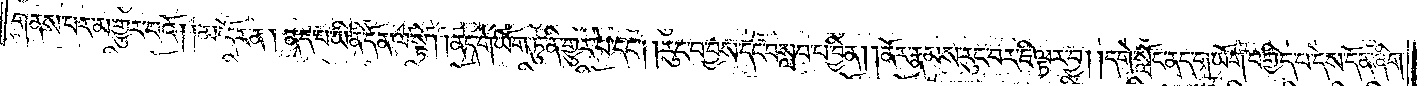གནས་པར་མ་གྱུར་བའོ། །མདོར་ན། ནད་པ་ཡི་ནི་དོན་ལ་སྟེ། །ནད་གཡོག་ཏུ་ནི་གྱུར་པ་དང༌། །རུང་བ་བྱས་དང་བསླབ་པ་བྱིན། །ནོར་རྣམས་རུང་བར་ཇི་ལྟར་བྱ། །དགེ་སློང་ནད་གཡོག་བགྱིད་པ་དེས་དོན་ཞིག་
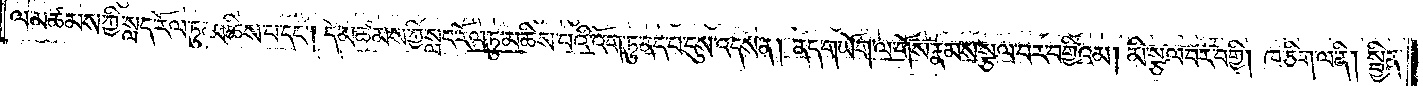ལ་མཚམས་ཀྱི་སླད་རོལ་ཏུ་མཆིས་པ་དང༌། དེ་མཚམས་ཀྱི་སླད་རོལ་ཏུ་མཆིས་པའི་འོག་ཏུ་ནད་པ་དུས་འདས་ན། ནད་གཡོག་ལ་གོས་རྣམས་སྩལ་བར་བགྱིའམ། མི་སྩལ་བར་བགྱི། ཁ་ཅིག་ལ་ནི། སྦྱིན་
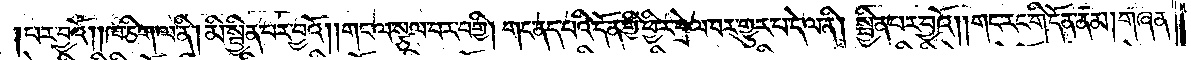པར་བྱའོ། །ཁ་ཅིག་ལ་ནི། མི་སྦྱིན་པར་བྱའོ། །གང་ལ་སྩལ་པར་བགྱི། གང་ནད་པའི་དོན་གྱི་ཕྱིར་བྲེལ་བར་གྱུར་བ་དེ་ལ་ནི། སྦྱིན་པར་བྱའོ། །གང་རང་གི་དོན་ནམ། གཞན་
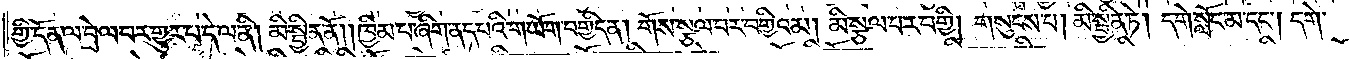གྱི་དོན་ལ་བྲེལ་བར་གྱུར་པ་དེ་ལ་ནི། མི་སྦྱིན་ནོ། །ཁྱིམ་པ་ཞིག་ནད་པའི་གཡོག་བགྱིད་ན། གོས་སྩལ་པར་བགྱིའམ། མི་སྩལ་བར་བགྱི། གསུངས་པ། མི་སྦྱིན་ཏེ། དགེ་སློང་མ་དང༌། དགེ་
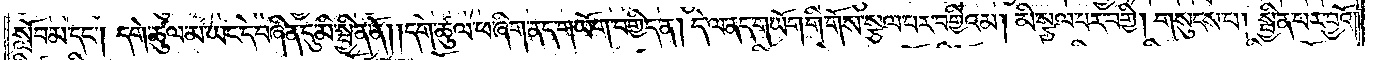སློབ་མ་དང༌། དགེ་ཚུལ་མ་ཡང་དེ་བཞིན་དུ་མི་སྦྱིན་ནོ། །དགེ་ཚུལ་ཕ་ཞིག་ནད་གཡོགས་བགྱིད་ན། དེ་ལ་ནད་གཡོག་གི་གོས་སྩལ་བར་བགྱིའམ། མི་སྩལ་བར་བགྱི། གསུངས་པ། སྦྱིན་པར་བྱའོ། །
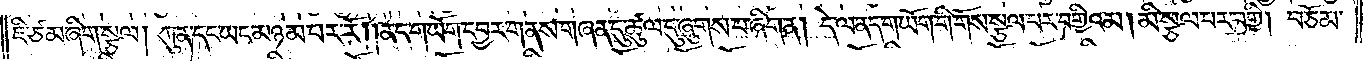ཇི་ཙམ་ཞིག་སྩལ། ཀུན་དང་ཡང་མཉམ་པར་རོ། །ནད་གཡོག་དབྱར་གནས་གཞན་དུ་ཚུལ་དུ་ཞུགས་པ་ཞིག་ན། དེ་ལ་ནད་གཡོག་གི་གོས་སྩལ་བར་བགྱིའམ། མི་སྩལ་བར་བགྱི། བཅོམ་
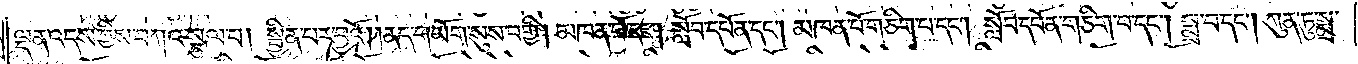ལྡན་འདས་ཀྱིས་བཀའ་སྩལ་པ། སྦྱིན་པར་བྱའོ། །ནད་གཡོག་སུས་བགྱི། མཁན་པོ་དང༌། སློབ་དཔོན་དང༌། མཁན་པོ་གཅིག་པ་དང༌། སློབ་དཔོན་གཅིག་པ་དང༌། སྨྲ་བ་དང༌། ཀུན་ཏུ་སྨྲ་
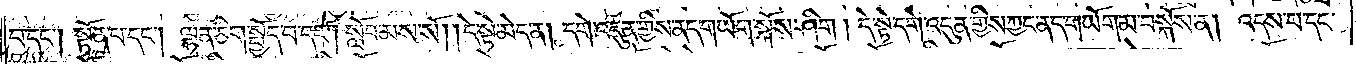བ་དང༌། སྟོན་པ་དང༌། ལྷན་ཅིག་སྤྱོད་པ་དང༌། སློབ་མས་སོ། །དེ་སྟེ་མེད་ན། དགེ་འདུན་གྱིས་ནད་གཡོག་སྐོས་ཤིག །དེ་སྟེ་དགེ་འདུན་གྱིས་ཀྱང་ནད་གཡོག་མ་བསྐོས་ན། འདས་པ་དང་
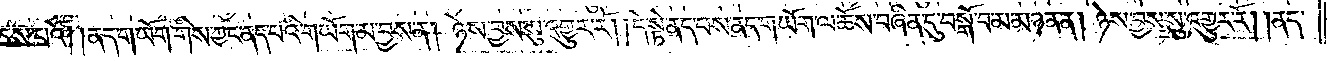བཅས་པའོ། །ནད་གཡོག་གིས་ཀྱང་ནད་པའི་གཡོག་མ་བྱས་ན། ཉེས་བྱས་སུ་འགྱུར་རོ། །དེ་སྟེ་ནད་པས་ནད་གཡོག་ལ་ཆོས་བཞིན་དུ་བསྒོ་བ་མ་མཉན་ན། ཉེས་བྱས་སུ་འགྱུར་རོ། །ནད་
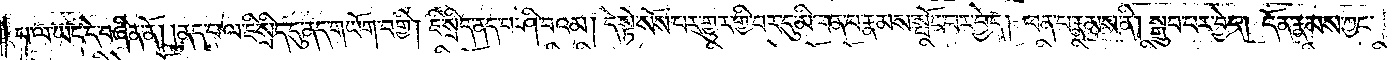པ་ལ་ཡང་དེ་བཞིན་ནོ། །ནད་པ་ལ་ཇི་སྲིད་དུ་ནད་གཡོག་བགྱི། ཇི་སྲིད་ནད་པ་ཤི་བའམ། དེ་སྟེ་སོས་པར་གྱུར་གྱི་བར་དུ་མི་ཕན་པ་རྣམས་སྤོང་བར་བྱེད། ཕན་པ་རྣམས་ནི། སྒྲུབ་པར་བྱེད། དོན་རྣམས་ཀྱང་
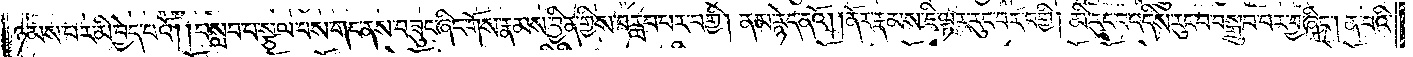ཉམས་པར་མི་བྱེད་པའོ། །བསླབ་པ་སྩལ་བས་གང་ནས་བཟུང་ཞིང་གོས་རྣམས་བྱིན་གྱིས་བརླབ་པར་བགྱི། ནམ་རྙེད་ནའོ། །ནོར་རྣམས་ཇི་ལྟར་རུང་བར་བགྱི། མི་རུང་བ་འདིས་རུང་བ་བསྒྲུབ་པར་བྱ་ཞིང༌། ན་བའི་
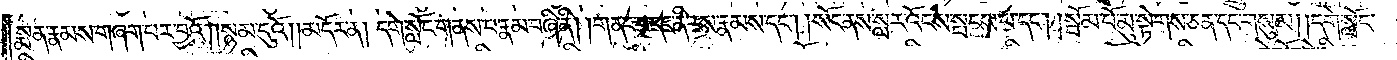སྨན་རྣམས་གཞག་པར་བྱའོ། །སྙམ་དུའོ། །མདོར་ན། དགེ་སློང་གནས་པ་རྣམ་བཞི་ནི། །གནང་བ་དང་ནི་རས་རྣམས་དང༌། །སོང་ནས་སླར་འོངས་སྤངས་པ་དང༌། །སྦོམ་པོ་མུ་སྟེགས་ཅན་དང་གསུམ། །དགེ་སློང་
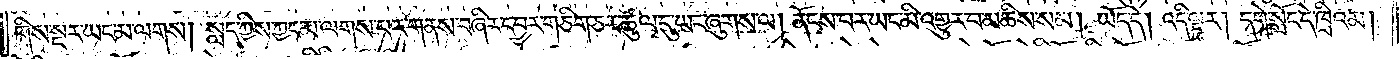གིས་སྔར་ཡང་མ་ལགས། སླད་ཀྱིས་ཀྱང་མ་ལགས་པར་གནས་བཞིར་དབྱར་གཅིག་ཅར་ཚུལ་དུ་ཡང་ཞུགས་ལ། ནོངས་པར་ཡང་མི་འགྱུར་བ་མཆིས་སམ། ཡོད་དེ། འདི་ལྟར། དགེ་སློང་དེ་ཁྲིའམ།
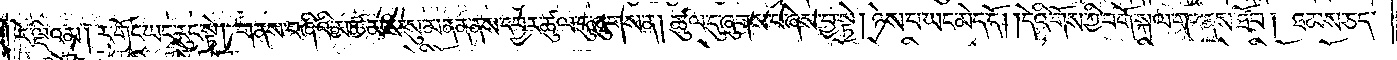རེ་ལྡེའམ། ར་གོང་ཡང་རུང་སྟེ། གནས་བཞིའི་མཚམས་སུ་མནན་ནས་དབྱར་ཚུལ་དུ་ཞུགས་ན། ཚུལ་དུ་ཞུགས་པ་ཞེས་བྱ་སྟེ། ཉེས་པ་ཡང་མེད་དོ། །དེའི་གོས་ཀྱི་བགོ་སྐལ་གང་ནས་ཐོབ། ཐམས་ཅད་
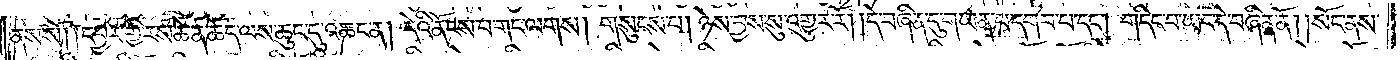ནས་སོ། །དབྱར་གྱི་རས་ཆེན་ཆོད་ལས་ཆུང་དུ་འཆང་ན། དེའི་ནོངས་པ་གང་ལགས། གསུངས་པ། ཉེས་བྱས་སུ་འགྱུར་རོ། །དེ་བཞིན་དུ་གཡན་པ་དགབ་པ་དང༌། གདིང་བ་ཡང་དེ་བཞིན་ནོ། །སོང་ནས་
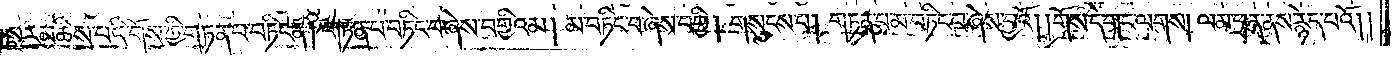སླར་མཆིས་པའི་གོས་ཀྱི་གཏན་པ་བཏིང་ན། གཏན་པ་བཏིང་བ་ཞེས་བགྱིའམ། མ་བཏིང་པ་ཞེས་བགྱི། གསུངས་པ། གཏན་པ་མ་བཏིང་བ་ཞེས་བྱའོ། །གོས་དེ་གང་ལགས། ལམ་ཕྲན་ནས་རྙེད་པའོ། །
